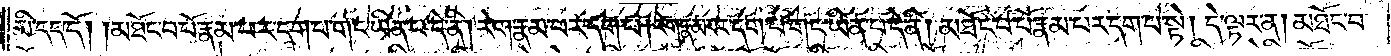མི་དད་དོ། །མཐོང་བ་པོ་རྣམ་པར་དག་པ་གང་ཡིན་པ་དེ་ནི། རེག་རྣམ་པར་དག་པ། རེག་རྣམ་པར་དག་པ་གང་ཡིན་པ་དེ་ནི། མཐོང་བ་པོ་རྣམ་པར་དག་པ་སྟེ། དེ་ལྟར་ན། མཐོང་བ་
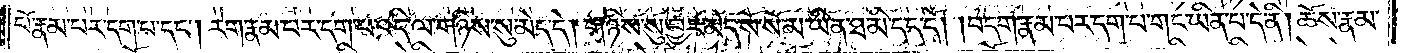པོ་རྣམ་པར་དག་པ་དང༌། རེག་རྣམ་པར་དག་པ་འདི་ལ་གཉིས་སུ་མེད་དེ། གཉིས་སུ་བྱར་མེད་སོ་སོ་མ་ཡིན་ཐ་མི་དད་དོ། །བདག་རྣམ་པར་དག་པ་གང་ཡིན་པ་དེ་ནི། ཆོས་རྣམ་
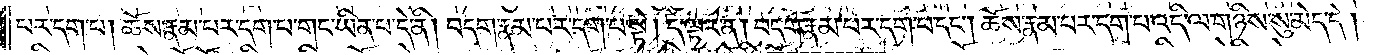པར་དག་པ། ཆོས་རྣམ་པར་དག་པ་གང་ཡིན་པ་དེ་ནི། བདག་རྣམ་པར་དག་པ་སྟེ། དེ་ལྟར་ན། བདག་རྣམ་པར་དག་པ་དང༌། ཆོས་རྣམ་པར་དག་པ་འདི་ལ་གཉིས་སུ་མེད་དེ།
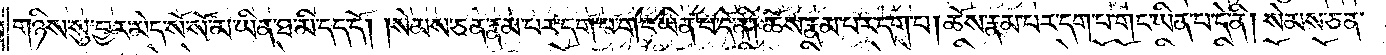གཉིས་སུ་བྱར་མེད་སོ་སོ་མ་ཡིན་ཐ་མི་དད་དོ། །སེམས་ཅན་རྣམ་པར་དག་པ་གང་ཡིན་པ་དེ་ནི། ཆོས་རྣམ་པར་དག་པ། ཆོས་རྣམ་པར་དག་པ་གང་ཡིན་པ་དེ་ནི། སེམས་ཅན་
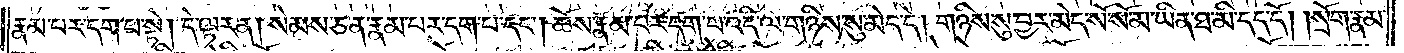རྣམ་པར་དག་པ་སྟེ། དེ་ལྟར་ན། སེམས་ཅན་རྣམ་པར་དག་པ་དང༌། ཆོས་རྣམ་པར་དག་པ་འདི་ལ་གཉིས་སུ་མེད་དེ། གཉིས་སུ་བྱར་མེད་སོ་སོ་མ་ཡིན་ཐ་མི་དད་དོ། །སྲོག་རྣམ་
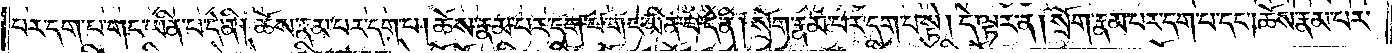པར་དག་པ་གང་ཡིན་པ་དེ་ནི། ཆོས་རྣམ་པར་དག་པ། ཆོས་རྣམ་པར་དག་པ་གང་ཡིན་པ་དེ་ནི། སྲོག་རྣམ་པར་དག་པ་སྟེ། དེ་ལྟར་ན། སྲོག་རྣམ་པར་དག་པ་དང༌། ཆོས་རྣམ་པར་
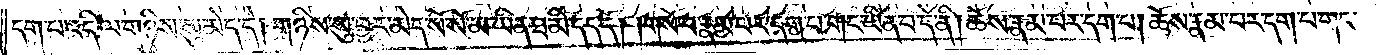དག་པ་འདི་ལ་གཉིས་སུ་མེད་དེ། གཉིས་སུ་བྱར་མེད་སོ་སོ་མ་ཡིན་ཐ་མི་དད་དོ། །གསོ་བ་རྣམ་པར་དག་པ་གང་ཡིན་པ་དེ་ནི། ཆོས་རྣམ་པར་དག་པ། ཆོས་རྣམ་པར་དག་པ་གང་
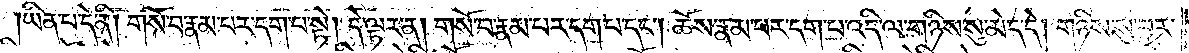ཡིན་པ་དེ་ནི། གསོ་བ་རྣམ་པར་དག་པ་སྟེ། དེ་ལྟར་ན། གསོ་བ་རྣམ་པར་དག་པ་དང༌། ཆོས་རྣམ་པར་དག་པ་འདི་ལ་གཉིས་སུ་མེད་དེ། གཉིས་སུ་བྱར་
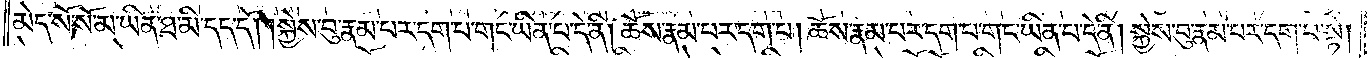མེད་སོ་སོ་མ་ཡིན་ཐ་མི་དད་དོ། །སྐྱེས་བུ་རྣམ་པར་དག་པ་གང་ཡིན་པ་དེ་ནི། ཆོས་རྣམ་པར་དག་པ། ཆོས་རྣམ་པར་དག་པ་གང་ཡིན་པ་དེ་ནི། སྐྱེས་བུ་རྣམ་པར་དག་པ་སྟེ།
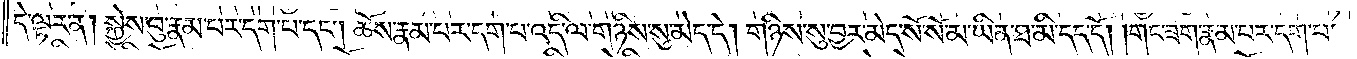དེ་ལྟར་ན། སྐྱེས་བུ་རྣམ་པར་དག་པ་དང༌། ཆོས་རྣམ་པར་དག་པ་འདི་ལ་གཉིས་སུ་མེད་དེ། གཉིས་སུ་བྱར་མེད་སོ་སོ་མ་ཡིན་ཐ་མི་དད་དོ། །གང་ཟག་རྣམ་པར་དག་པ་
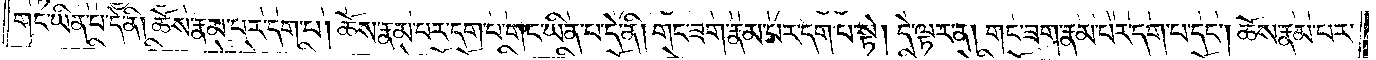གང་ཡིན་པ་དེ་ནི། ཆོས་རྣམ་པར་དག་པ། ཆོས་རྣམ་པར་དག་པ་གང་ཡིན་པ་དེ་ནི། གང་ཟག་རྣམ་པར་དག་པ་སྟེ། དེ་ལྟར་ན། གང་ཟག་རྣམ་པར་དག་པ་དང༌། ཆོས་རྣམ་པར་
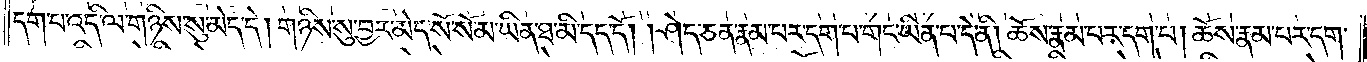དག་པ་འདི་ལ་གཉིས་སུ་མེད་དེ། གཉིས་སུ་བྱར་མེད་སོ་སོ་མ་ཡིན་ཐ་མི་དད་དོ། །ཤེད་ཅན་རྣམ་པར་དག་པ་གང་ཡིན་པ་དེ་ནི། ཆོས་རྣམ་པར་དག་པ། ཆོས་རྣམ་པར་དག་
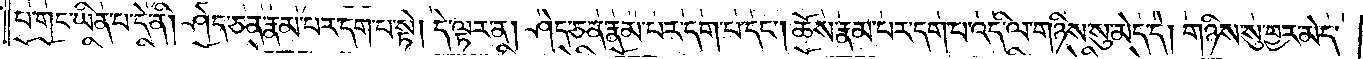པ་གང་ཡིན་པ་དེ་ནི། ཤེད་ཅན་རྣམ་པར་དག་པ་སྟེ། དེ་ལྟར་ན། ཤེད་ཅན་རྣམ་པར་དག་པ་དང༌། ཆོས་རྣམ་པར་དག་པ་འདི་ལ་གཉིས་སུ་མེད་དེ། གཉིས་སུ་བྱར་མེད་
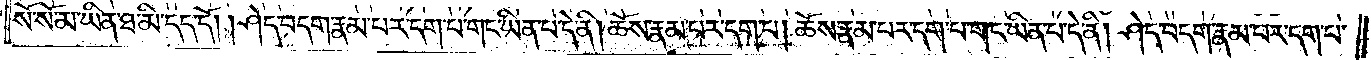སོ་སོ་མ་ཡིན་ཐ་མི་དད་དོ། །ཤེད་བདག་རྣམ་པར་དག་པ་གང་ཡིན་པ་དེ་ནི། ཆོས་རྣམ་པར་དག་པ། ཆོས་རྣམ་པར་དག་པ་གང་ཡིན་པ་དེ་ནི། ཤེད་བདག་རྣམ་པར་དག་པ་
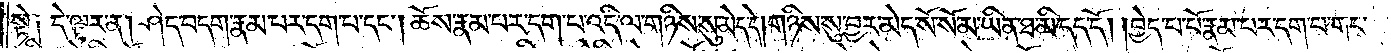སྟེ༑ དེ་ལྟར་ན། ཤེད་བདག་རྣམ་པར་དག་པ་དང༌། ཆོས་རྣམ་པར་དག་པ་འདི་ལ་གཉིས་སུ་མེད་དེ། གཉིས་སུ་བྱར་མེད་སོ་སོ་མ་ཡིན་ཐ་མི་དད་དོ། །བྱེད་པ་པོ་རྣམ་པར་དག་པ་གང་
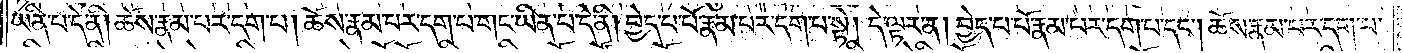ཡིན་པ་དེ་ནི། ཆོས་རྣམ་པར་དག་པ། ཆོས་རྣམ་པར་དག་པ་གང་ཡིན་པ་དེ་ནི། བྱེད་པ་པོ་རྣམ་པར་དག་པ་སྟེ། དེ་ལྟར་ན། བྱེད་པ་པོ་རྣམ་པར་དག་པ་དང༌། ཆོས་རྣམ་པར་དག་པ་
